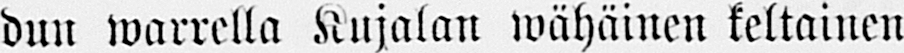dun warrella Kujalan wähäinen keltainen
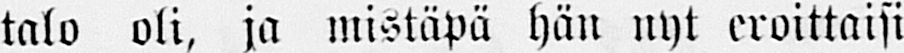talo oli, ja mistäpä hän nyt eroittaisi
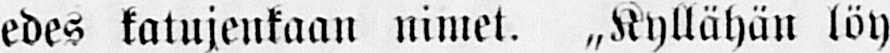edes katujenkaan nimet. „Kyllähän löy-
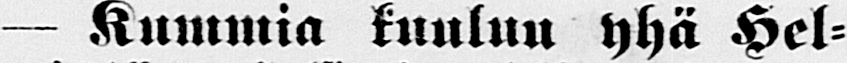— Kummia kuuluu yhä Hel-
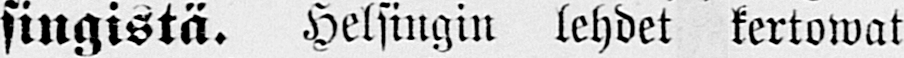singistä. Helsingin lehdet kertowat
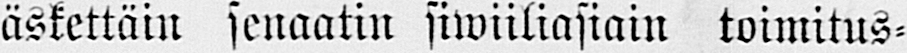äskettäin senaatin siwiiliasiain toimitus-
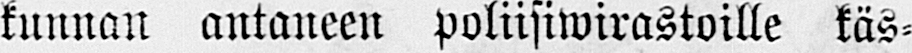kunnan antaneen poliisiwirastoille käs-
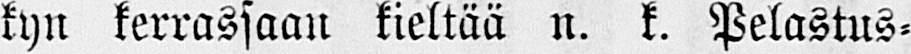kyn kerrassaan kieltää n. k. Pelastus-
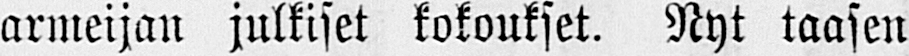armeijan julkiset kokoukset. Nyt taasen
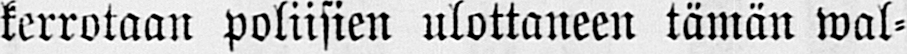kerrotaan poliisien ulottaneen tämän wal-
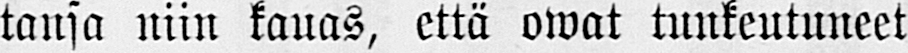tansa niin kauas, että owat tunkeutuneet
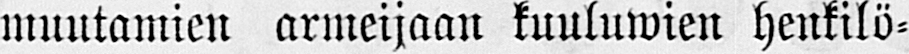muutamien armeijaan kuuluwien henkilö-
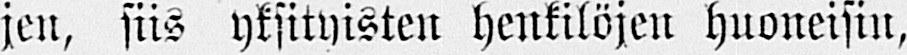jen, siis yksityisten henkilöjen huoneisin,
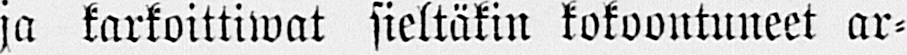ja karkoittiwat sieltäkin kokoontuneet ar-
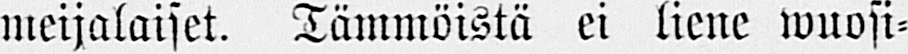meijalaiset. Tämmöistä ei liene wuosi-
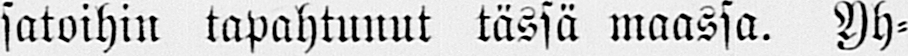satoihin tapahtunut tässä maassa. Yh-
